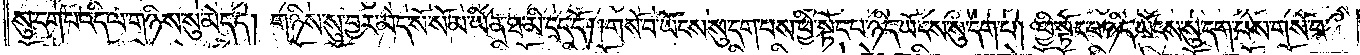སུ་དག་པ་འདི་ལ་གཉིས་སུ་མེད་དེ། གཉིས་སུ་བྱར་མེད་སོ་སོ་མ་ཡིན་ཐ་མི་དད་དོ། །གསོ་བ་ཡོངས་སུ་དག་པས་ཕྱི་སྟོང་པ་ཉིད་ཡོངས་སུ་དག་པ། ཕྱི་སྟོང་པ་ཉིད་ཡོངས་སུ་དག་པས་གསོ་བ་
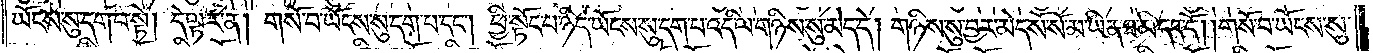ཡོངས་སུ་དག་པ་སྟེ། དེ་ལྟར་ན། གསོ་བ་ཡོངས་སུ་དག་པ་དང༌། ཕྱི་སྟོང་པ་ཉིད་ཡོངས་སུ་དག་པ་འདི་ལ་གཉིས་སུ་མེད་དེ། གཉིས་སུ་བྱར་མེད་སོ་སོ་མ་ཡིན་ཐ་མི་དད་དོ། །གསོ་བ་ཡོངས་སུ་
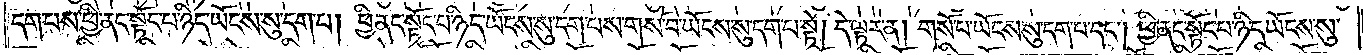དག་པས་ཕྱི་ནང་སྟོང་པ་ཉིད་ཡོངས་སུ་དག་པ། ཕྱི་ནང་སྟོང་པ་ཉིད་ཡོངས་སུ་དག་པས་གསོ་བ་ཡོངས་སུ་དག་པ་སྟེ། དེ་ལྟར་ན། གསོ་བ་ཡོངས་སུ་དག་པ་དང༌། ཕྱི་ནང་སྟོང་པ་ཉིད་ཡོངས་སུ་
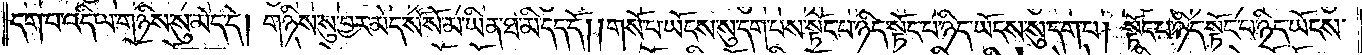དག་པ་འདི་ལ་གཉིས་སུ་མེད་དེ། གཉིས་སུ་བྱར་མེད་སོ་སོ་མ་ཡིན་ཐ་མི་དད་དོ། །གསོ་བ་ཡོངས་སུ་དག་པས་སྟོང་པ་ཉིད་སྟོང་པ་ཉིད་ཡོངས་སུ་དག་པ། སྟོང་པ་ཉིད་སྟོང་པ་ཉིད་ཡོངས་
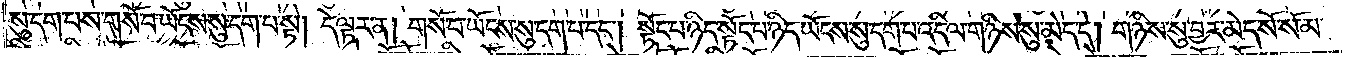སུ་དག་པས་གསོ་བ་ཡོངས་སུ་དག་པ་སྟེ། དེ་ལྟར་ན། གསོ་བ་ཡོངས་སུ་དག་པ་དང༌། སྟོང་པ་ཉིད་སྟོང་པ་ཉིད་ཡོངས་སུ་དག་པ་འདི་ལ་གཉིས་སུ་མེད་དེ། གཉིས་སུ་བྱར་མེད་སོ་སོ་མ་
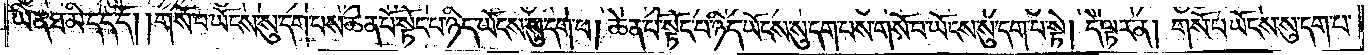ཡིན་ཐ་མི་དད་དོ། །གསོ་བ་ཡོངས་སུ་དག་པས་ཆེན་པོ་སྟོང་པ་ཉིད་ཡོངས་སུ་དག་པ། ཆེན་པོ་སྟོང་པ་ཉིད་ཡོངས་སུ་དག་པ་གསོ་བ་ཡོངས་སུ་དག་པ་སྟེ། དེ་ལྟར་ན། གསོ་བ་ཡོངས་སུ་དག་པ་
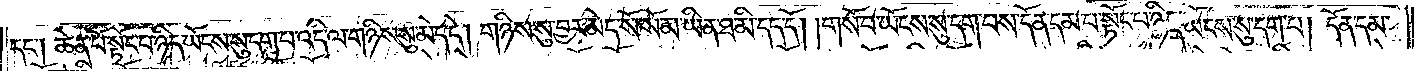དང༌། ཆེན་པོ་སྟོང་པ་ཉིད་ཡོངས་སུ་དག་པ་འདི་ལ་གཉིས་སུ་མེད་དེ། གཉིས་སུ་བྱར་མེད་སོ་སོ་མ་ཡིན་ཐ་མི་དད་དོ། །གསོ་བ་ཡོངས་སུ་དག་པས་དོན་དམ་པ་སྟོང་པ་ཉིད་ཡོངས་སུ་དག་པ། དོན་དམ་
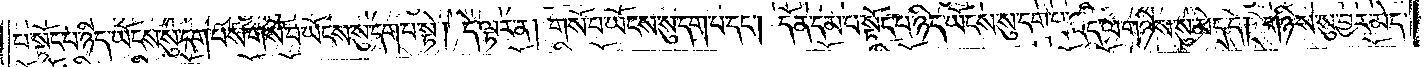པ་སྟོང་པ་ཉིད་ཡོངས་སུ་དག་པས་གསོ་བ་ཡོངས་སུ་དག་པ་སྟེ། དེ་ལྟར་ན། གསོ་བ་ཡོངས་སུ་དག་པ་དང༌། དོན་དམ་པ་སྟོང་པ་ཉིད་ཡོངས་སུ་དག་པ་འདི་ལ་གཉིས་སུ་མེད་དེ། གཉིས་སུ་བྱར་མེད་
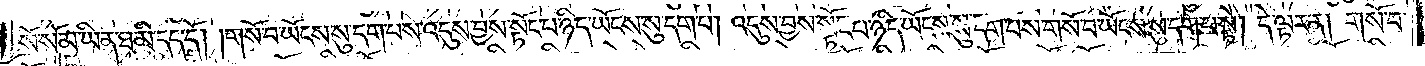སོ་སོ་མ་ཡིན་ཐ་མི་དད་དོ། །གསོ་བ་ཡོངས་སུ་དག་པས་འདུས་བྱས་སྟོང་པ་ཉིད་ཡོངས་སུ་དག་པ། འདུས་བྱས་སྟོང་པ་ཉིད་ཡོངས་སུ་དག་པས་གསོ་བ་ཡོངས་སུ་དག་པ་སྟེ། དེ་ལྟར་ན། གསོ་བ་
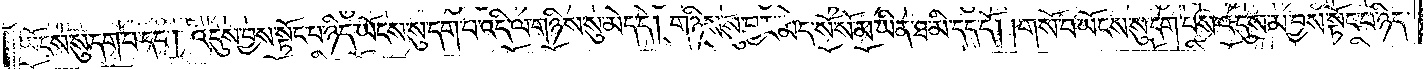ཡོངས་སུ་དག་པ་དང༌། འདུས་བྱས་སྟོང་པ་ཉིད་ཡོངས་སུ་དག་པ་འདི་ལ་གཉིས་སུ་མེད་དེ། གཉིས་སུ་བྱར་མེད་སོ་སོ་མ་ཡིན་ཐ་མི་དད་དོ། །གསོ་བ་ཡོངས་སུ་དག་པས་འདུས་མ་བྱས་སྟོང་པ་ཉིད་
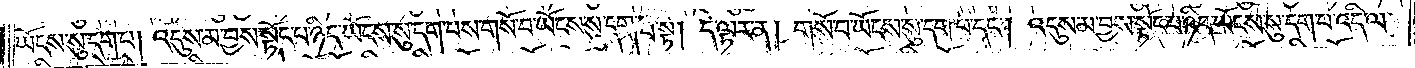ཡོངས་སུ་དག་པ། འདུས་མ་བྱས་སྟོང་པ་ཉིད་ཡོངས་སུ་དག་པས་གསོ་བ་ཡོངས་སུ་དག་པ་སྟེ། དེ་ལྟར་ན། གསོ་བ་ཡོངས་སུ་དག་པ་དང༌། འདུས་མ་བྱས་སྟོང་པ་ཉིད་ཡོངས་སུ་དག་པ་འདི་ལ་
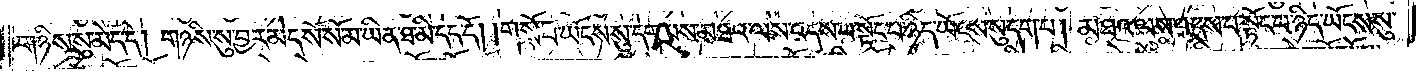གཉིས་སུ་མེད་དེ། གཉིས་སུ་བྱར་མེད་སོ་སོ་མ་ཡིན་ཐ་མི་དད་དོ། །གསོ་བ་ཡོངས་སུ་དག་པས་མཐའ་ལས་འདས་པ་སྟོང་པ་ཉིད་ཡོངས་སུ་དག་པ། མཐའ་ལས་འདས་པ་སྟོང་པ་ཉིད་ཡོངས་སུ་
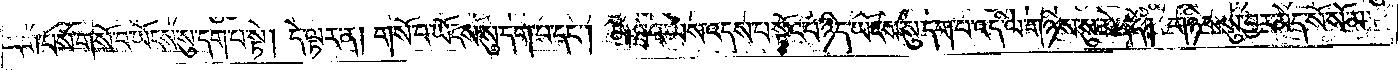དག་པས་གསོ་བ་ཡོངས་སུ་དག་པ་སྟེ། དེ་ལྟར་ན། གསོ་བ་ཡོངས་སུ་དག་པ་དང༌། མཐའ་ལས་འདས་པ་སྟོང་པ་ཉིད་ཡོངས་སུ་དག་པ་འདི་ལ་གཉིས་སུ་མེད་དེ། གཉིས་སུ་བྱར་མེད་སོ་སོ་མ་
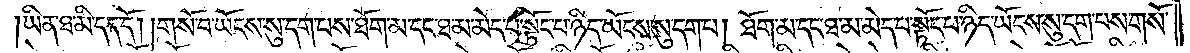ཡིན་ཐ་མི་དད་དོ། །གསོ་བ་ཡོངས་སུ་དག་པས་ཐོག་མ་དང་ཐ་མ་མེད་པ་སྟོང་པ་ཉིད་ཡོངས་སུ་དག་པ། ཐོག་མ་དང་ཐ་མ་མེད་པ་སྟོང་པ་ཉིད་ཡོངས་སུ་དག་པས་གསོ་
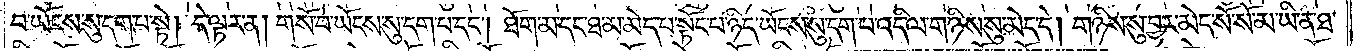བ་ཡོངས་སུ་དག་པ་སྟེ། དེ་ལྟར་ན། གསོ་བ་ཡོངས་སུ་དག་པ་དང༌། ཐོག་མ་དང་ཐ་མ་མེད་པ་སྟོང་པ་ཉིད་ཡོངས་སུ་དག་པ་འདི་ལ་གཉིས་སུ་མེད་དེ། གཉིས་སུ་བྱར་མེད་སོ་སོ་མ་ཡིན་ཐ་
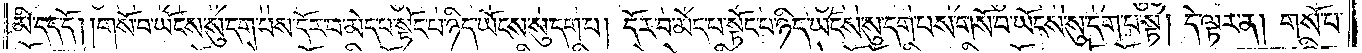མི་དད་དོ། །གསོ་བ་ཡོངས་སུ་དག་པས་དོར་བ་མེད་པ་སྟོང་པ་ཉིད་ཡོངས་སུ་དག་པ། དོར་བ་མེད་པ་སྟོང་པ་ཉིད་ཡོངས་སུ་དག་པས་གསོ་བ་ཡོངས་སུ་དག་པ་སྟེ། དེ་ལྟར་ན། གསོ་བ་
